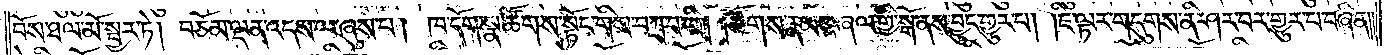བོས་ཐལ་མོ་སྦྱར་ཏེ། བཅོམ་ལྡན་འདས་ལ་ཞུས་པ། ཁ་དོག་སྣ་ཚོགས་སྟོང་གིས་བཀྲ་བ་ཡི། །ཚོགས་རྣམས་ཞལ་གྱིས་སྒོ་ནས་བྱུང་གྱུར་པ། །ཇི་ལྟར་གདུགས་ནི་ཤར་བར་གྱུར་པ་བཞིན༎
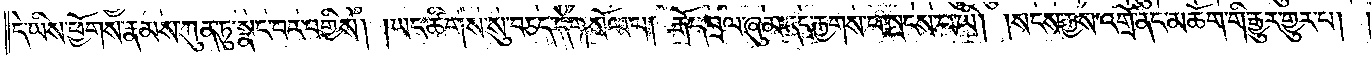དེ་ཡིས་ཕྱོགས་རྣམས་ཀུན་ཏུ་སྣང་བར་བགྱིས། །ཡང་ཚིགས་སུ་བཅད་དེ་གསོལ་པ། རྒོད་བྲལ་ཞུམ་དང་རྒྱགས་པ་སྤངས་པ་ཡི། །སངས་རྒྱས་འགྲོ་ནང་མཆོག་གི་རྒྱུར་གྱུར་པ། །
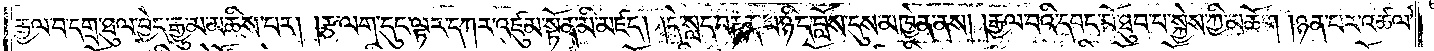རྒྱལ་བ་དགྲ་ཐུལ་བྱེད་རྒྱུ་མ་མཆིས་པར། །རྩ་ལག་དུང་ལྟར་དཀར་འཛུམ་སྟོན་མི་མཛད། །དེ་སླད་བརྟན་པ་ཉིད་བློས་དུས་མཁྱེན་ནས། །རྒྱལ་བའི་དབང་པོ་ཐུབ་པ་སྐྱེས་ཀྱི་མཆོག །ཉན་པར་འཚལ་
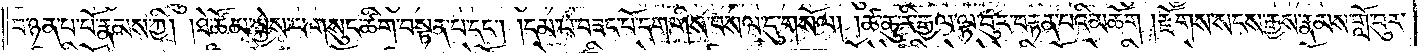བ་ཉན་པ་པོ་རྣམས་ཀྱི། །ཐེ་ཚོམ་སྐྱེས་པ་གསུང་ཚིག་བསྟན་པ་དང༌། །དམ་པ་བཟང་པོ་དག་གིས་བསལ་དུ་གསོལ། །ཚ་ཆུ་རི་རྒྱལ་ལྟ་བུར་བརྟན་པའི་མཆོག །རྫོགས་སངས་རྒྱས་རྣམས་གློ་བུར་
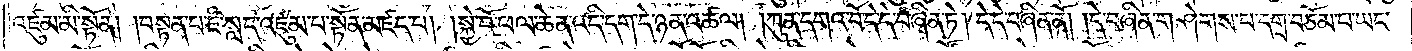འཛུམ་མི་སྟོན། །བསྟན་པ་ཇི་སླད་འཛུམ་པ་སྟོན་མཛད་པ། །སྐྱེ་བོ་ཕལ་ཆེན་འདི་དག་དེ་ཉན་འཚལ། །ཀུན་དགའ་བོ་དེ་དེ་བཞིན་ཏེ། དེ་དེ་བཞིན་ནོ། །དེ་བཞིན་གཤེགས་པ་དགྲ་བཅོམ་པ་ཡང་
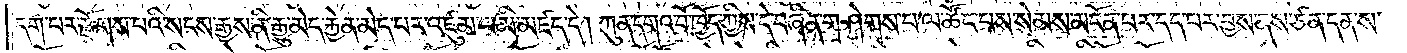དག་པར་རྫོགས་པའི་སངས་རྒྱས་ནི་རྒྱུ་མེད་རྐྱེན་མེད་པར་འཛུམ་པ་མི་མཛད་དེ། ཀུན་དགའ་བོ་ཁྱོད་ཀྱིས་དེ་བཞིན་གཤེགས་པ་ལ་ཚོང་པས་སེམས་མངོན་པར་དད་པར་བྱས་ནས་ཙན་དན་ས་
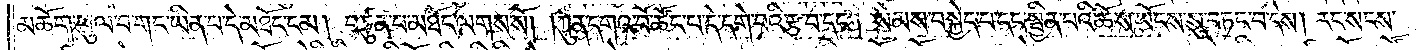མཆོག་ཕུལ་བ་གང་ཡིན་པ་དེ་མཐོང་ངམ། བཙུན་པ་མཐོང་ལགས་སོ། །ཀུན་དགའ་བོ་ཚོང་པ་དེ་དགེ་བའི་རྩ་བ་དང༌། སེམས་བསྐྱེད་པ་དང་སྦྱིན་པའི་ཆོས་ཡོངས་སུ་བཏང་བ་དེས། རང་སངས་
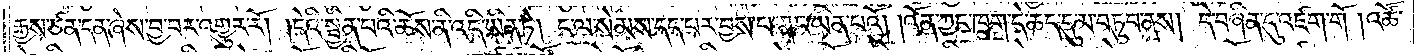རྒྱས་ཙན་དན་ཞེས་བྱ་བར་འགྱུར་རོ། །དེའི་སྦྱིན་པའི་ཆོས་ནི་འདི་ཡིན་ཏེ། ང་ལ་སེམས་དད་པར་བྱས་པ་གང་ཡིན་པའོ། །འོན་ཀྱང་ཁྲག་དེ་ཆད་དུ་མ་བཏུབ་ནས། དེ་བཞིན་དུ་འཛག་གོ །འཚོ་
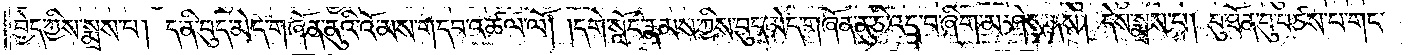བྱེད་ཀྱིས་སྨྲས་པ། ད་ནི་བུད་མེད་གཞོན་ནུའི་འོ་མས་གདབ་འཚལ་ལོ། །དགེ་སློང་རྣམས་ཀྱིས་བུད་མེད་གཞོན་ནུ་ཅི་འདྲ་བ་ཞིག་མ་ཤེས་ནས། དེས་སྨྲས་པ། བུ་ཐོན་བུ་བཙས་པ་གང་
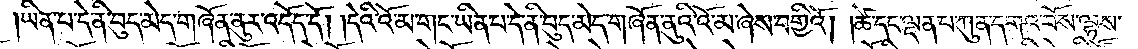།ཡིན་པ་དེ་ནི་བུད་མེད་གཞོན་ནུར་འདོད་དོ། །དེའི་འོ་མ་གང་ཡིན་པ་དེ་ནི་བུད་མེད་གཞོན་ནུའི་འོ་མ་ཞེས་བགྱིའོ། །ཚེ་དང་ལྡན་པ་ཀུན་དགའ་བོས་ལྷས་
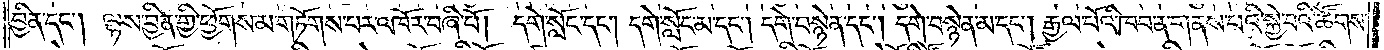བྱིན་དང༌། ལྷས་བྱིན་གྱི་ཕྱོགས་མ་གཏོགས་པར་འཁོར་བཞི་པོ། དགེ་སློང་དང༌། དགེ་སློང་མ་དང༌། དགེ་བསྙེན་དང༌། དགེ་བསྙེན་མ་དང༌། རྒྱལ་པོའི་ཁབ་ན་གནས་པའི་སྐྱེ་བའི་ཚོགས་
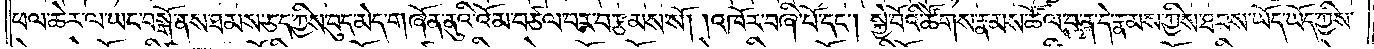ཕལ་ཆེར་ལ་ཡང་བསྒོ་ནས་ཐམས་ཅད་ཀྱིས་བུད་མེད་གཞོན་ནུའི་འོ་མ་བཙལ་བར་བརྩམས་སོ། །འཁོར་བཞི་པོ་དང༌། སྐྱེ་བོའི་ཚོགས་རྣམས་ཚོལ་བ་ན་དེ་རྣམས་ཀྱིས་ཐབས་ཡོད་ཡོད་ཀྱིས་
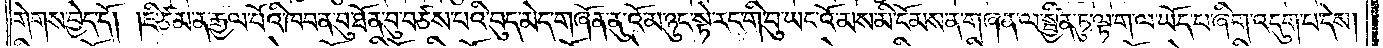གེགས་བྱེད་དོ། །ཇི་ཙམ་ན་རྒྱལ་པོའི་ཁབ་ན་བུ་ཐོན་བུ་བཙས་པའི་བུད་མེད་གཞོན་ནུ་འོ་མ་ཉུང་སྟེ་རང་གི་བུ་ཡང་འོ་མས་མི་ངོམས་ན་གཞན་ལ་སྦྱིན་ཏུ་ལྟ་ག་ལ་ཡོད་པ་ཞིག་འདུག་པ་དེས།
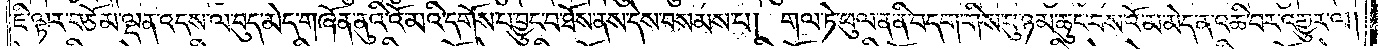ཇི་ལྟར་བཅོམ་ལྡན་འདས་ལ་བུད་མེད་གཞོན་ནུའི་འོ་མའི་དགོས་པ་བྱུང་བ་ཐོས་ནས་དེས་བསམས་པ། གལ་ཏེ་ཕུལ་ན་ནི་བདག་གིས་བུ་ཉམ་ཆུང་བས་འོ་མ་མེད་ན་འཆི་བར་འགྱུར་ལ།
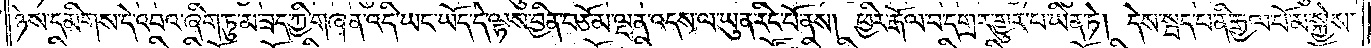ཉེས་དམིགས་དེ་འབའ་ཞིག་ཏུ་མ་ཟད་ཀྱི་གཞན་འདི་ཡང་ཡོད་དེ་ལྷས་བྱིན་བཅོམ་ལྡན་འདས་ལ་ཡུན་རིང་པོ་ནས། ཕྱིར་རྒོལ་བ་དགྲར་གྱུར་པ་ཡིན་ཏེ། དེས་སྦད་པ་ནི་རྒྱལ་པོ་མ་སྐྱེས་
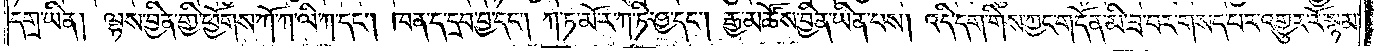དགྲ་ཡིན། ལྷས་བྱིན་གྱི་ཕྱོགས་ཀོ་ཀ་ལི་ཀ་དང༌། ཁན་ད་དྲབ་བྱ་དང༌། ཀ་ཏ་མོ་ར་ཀ་ཏི་ཤྱ་དང༌། རྒྱ་མཚོས་བྱིན་ཡིན་པས། འདི་དག་གིས་ཀྱང་གདོན་མི་ཟ་བར་གསད་པར་འགྱུར་རོ་སྙམ་
